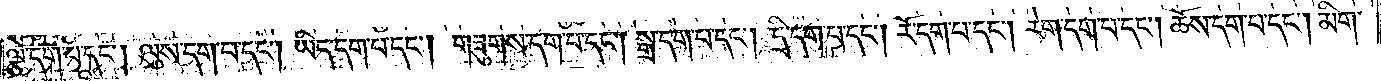ལྕེ་དག་པ་དང༌། ལུས་དག་པ་དང༌། ཡིད་དག་པ་དང༌། གཟུགས་དག་པ་དང༌། སྒྲ་དག་པ་དང༌། དྲི་དག་པ་དང༌། རོ་དག་པ་དང༌། རེག་དག་པ་དང༌། ཆོས་དག་པ་དང༌། མིག་
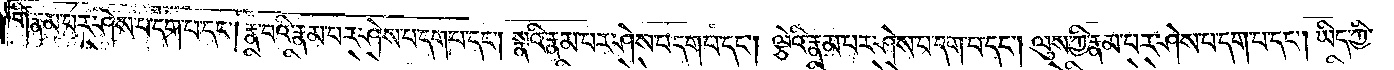གི་རྣམ་པར་ཤེས་པ་དག་པ་དང༌། རྣ་བའི་རྣམ་པ་ཤེས་པ་དག་པ་དང༌། སྣའི་རྣམ་པར་ཤེས་པ་དག་པ་དང༌། ལྕེའི་རྣམ་པར་ཤེས་བ་དག་པ་དང༌། ལུས་ཀྱི་རྣམ་པར་ཤེས་པ་དག་པ་དང༌། ཡིད་ཀྱི་
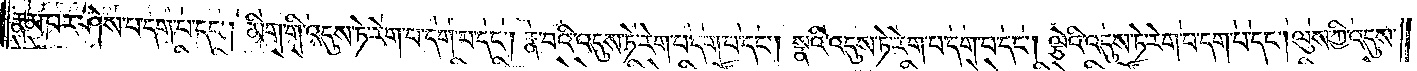རྣམ་པར་ཤེས་པ་དག་པ་དང༌། མིག་གི་འདུས་ཏེ་རེག་པ་དག་པ་དང༌། རྣ་བའི་འདུས་ཏེ་རེག་པ་དག་པ་དང༌། སྣའི་འདུས་ཏེ་རེག་པ་དག་པ་དང༌། ལྕེའི་འདུས་ཏེ་རེག་པ་དག་པ་དང༌། ལུས་ཀྱི་འདུས་
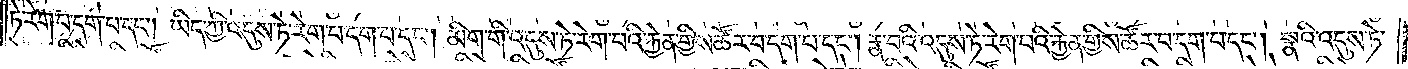ཏེ་རེག་པ་དག་པ་དང༌། ཡིད་ཀྱི་འདུས་ཏེ་རེག་པ་དག་པ་དང༌། མིག་གི་འདུས་ཏེ་རེག་པའི་རྐྱེན་གྱིས་ཚོར་བདག་པ་དང༌། རྣ་བའི་འདུས་ཏེ་རེག་པའི་རྐྱེན་གྱིས་ཚོར་བ་དག་པ་དང༌། སྣའི་འདུས་ཏེ་
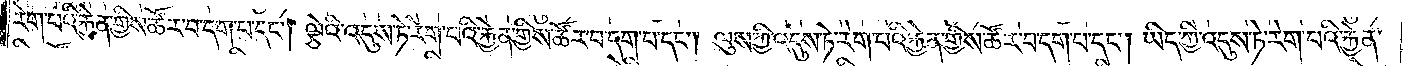རེག་པའི་རྐྱེན་གྱིས་ཚོར་བ་དག་པ་དང༌། ལྕེའི་འདུས་ཏེ་རེག་པའི་རྐྱེན་གྱིས་ཚོར་བ་དག་པ་དང༌། ལུས་ཀྱི་འདུས་ཏེ་རེག་པའི་རྐྱེན་གྱིས་ཚོར་བ་དག་པ་དང༌། ཡིད་ཀྱི་འདུས་ཏེ་རེག་པའི་རྐྱེན་
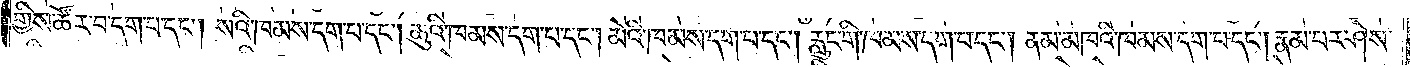གྱིས་ཚོར་བ་དག་པ་དང༌། སའི་ཁམས་དག་པ་དང༌། ཆུའི་ཁམས་དག་པ་དང༌། མེའི་ཁམས་དག་པ་དང༌། རླུང་གི་ཁམས་དག་པ་དང༌། ནམ་མཁའི་ཁམས་དག་པ་དང༌། རྣམ་པར་ཤེས་
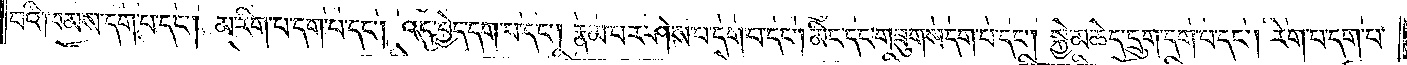པའི་ཁམས་དག་པ་དང༌། མ་རིག་པ་དག་པ་དང༌། འདུ་བྱེད་དག་པ་དང༌། རྣམ་པར་ཤེས་པ་དག་པ་དང༌། མིང་དང་གཟུགས་དག་པ་དང༌། སྐྱེ་མཆེད་དྲུག་དག་པ་དང༌། རེག་པ་དག་པ་
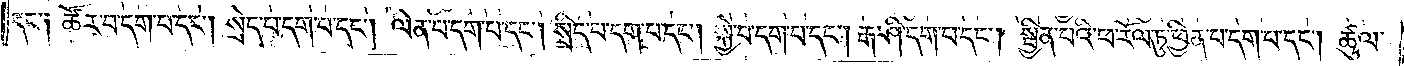དང༌། ཚོར་བ་དག་པ་དང༌། སྲེད་པ་དག་པ་དང༌། ལེན་པ་དག་པ་དང༌། སྲིད་པ་དག་པ་དང༌། སྐྱེ་བ་དག་པ་དང༌། རྒ་ཤི་དག་པ་དང༌། སྦྱིན་པའི་ཕ་རོལ་ཏུ་ཕྱིན་པ་དག་པ་དང༌། ཚུལ་
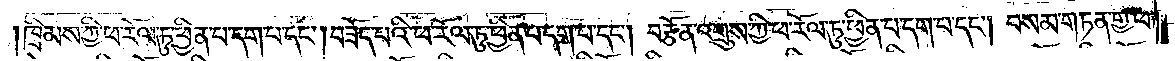ཁྲིམས་ཀྱི་ཕ་རོལ་ཏུ་ཕྱིན་པ་དག་པ་དང༌། བཟོད་པའི་ཕ་རོལ་ཏུ་ཕྱིན་པ་དག་པ་དང༌། བརྩོན་འགྲུས་ཀྱི་ཕ་རོལ་ཏུ་ཕྱིན་པ་དག་པ་དང༌། བསམ་གཏན་གྱི་ཕ་
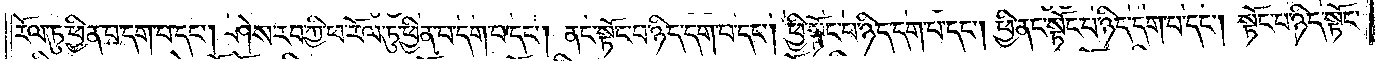རོལ་ཏུ་ཕྱིན་པ་དག་པ་དང༌། ཤེས་རབ་ཀྱི་ཕ་རོལ་ཏུ་ཕྱིན་པ་དག་པ་དང༌། ནང་སྟོང་པ་ཉིད་དག་པ་དང༌། ཕྱི་སྟོང་པ་ཉིད་དག་པ་དང༌། ཕྱི་ནང་སྟོང་པ་ཉིད་དག་པ་དང༌། སྟོང་པ་ཉིད་སྟོང་
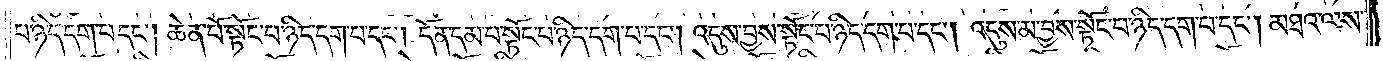པ་ཉིད་དག་པ་དང༌། ཆེན་པོ་སྟོང་པ་ཉིད་དག་པ་དང༌། དོན་དམ་པ་སྟོང་པ་ཉིད་དག་པ་དང༌། འདུས་བྱས་སྟོང་པ་ཉིད་དང་པ་དང༌། འདུས་མ་བྱས་སྟོང་པ་ཉིད་དག་པ་དང༌། མཐའ་ལས་
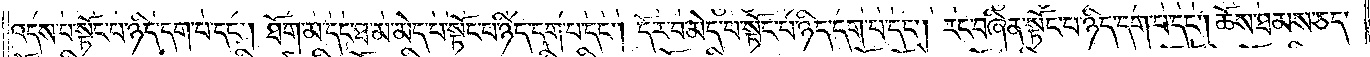འདས་པ་སྟོང་པ་ཉིད་དག་པ་དང༌། ཐོག་མ་དང་ཐ་མ་མེད་པ་སྟོང་པ་ཉིད་དག་པ་དང༌། དོར་བ་མེད་པ་སྟོང་པ་ཉིད་དག་པ་དང༌། རང་བཞིན་སྟོང་པ་ཉིད་དག་པ་དང༌། ཆོས་ཐམས་ཅད་
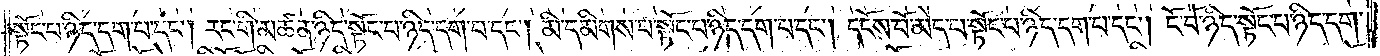སྟོང་པ་ཉིད་དག་པ་དང༌། རང་གི་མཚན་ཉིད་སྟོང་པ་ཉིད་དག་པ་དང༌། མི་དམིགས་པ་སྟོང་པ་ཉིད་དག་པ་དང༌། དངོས་པོ་མེད་པ་སྟོང་པ་ཉིད་དག་པ་དང༌། ངོ་བོ་ཉིད་སྟོང་པ་ཉིད་དག་
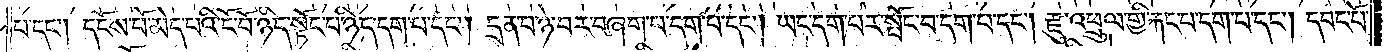པ་དང༌། དངོས་པོ་མེད་པའི་ངོ་བོ་ཉིད་སྟོང་པ་ཉིད་དག་པ་དང༌། དྲན་པ་ཉེ་བར་བཞག་པ་དག་པ་དང༌། ཡང་དག་པར་སྤོང་བ་དག་པ་དང༌། རྫུ་འཕྲུལ་གྱི་རྐང་པ་དག་པ་དང༌། དབང་པོ་
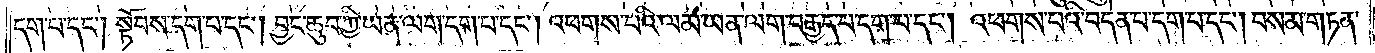དག་པ་དང༌། སྟོབས་དག་པ་དང༌། བྱང་ཆུབ་ཀྱི་ཡན་ལག་དག་པ་དང༌། འཕགས་པའི་ལམ་ཡན་ལག་བརྒྱད་པ་དག་པ་དང༌། འཕགས་པའི་བདེན་པ་དག་པ་དང༌། བསམ་གཏན་
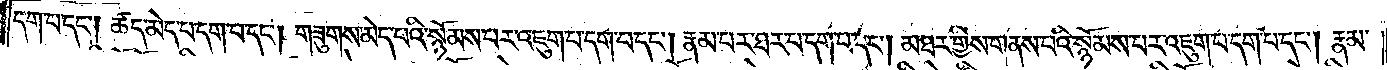དག་པ་དང༌། ཚད་མེད་པ་དག་པ་དང༌། གཟུགས་མེད་པའི་སྙོམས་པར་འཇུག་པ་དག་པ་དང༌། རྣམ་པར་ཐར་པ་དག་པ་དང༌། མཐར་གྱིས་གནས་པའི་སྙོམས་པར་འཇུག་པ་དག་པ་དང༌། རྣམ་
